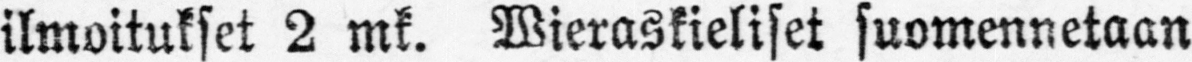ilmoitukset 2 mk. Wieraskieliset suomennetaan
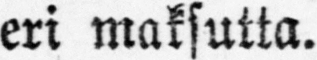eri maksutta.
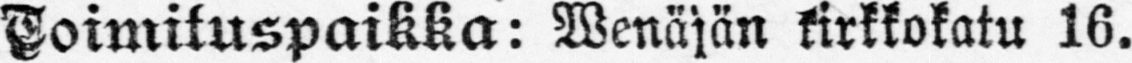Toimituspaikka: Wenäjän kirkkokatu 16.
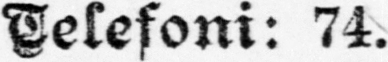Telefoni: 74.
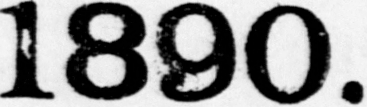1890.
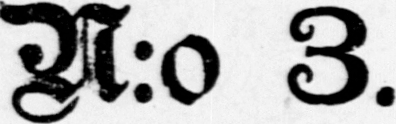N:o 3.
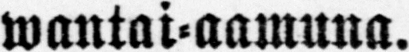wantai-aamuna.
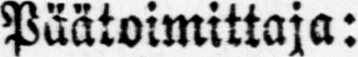Päätoimittaja:
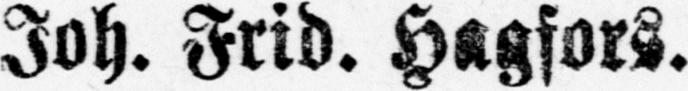Joh. Frid. Hagsors.
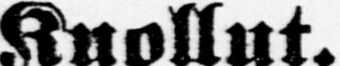Kuollut.
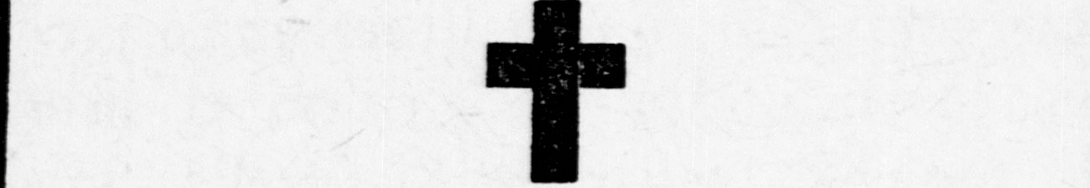†
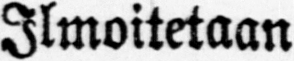Ilmoitetaan
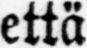että
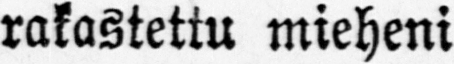rakastettu mieheni
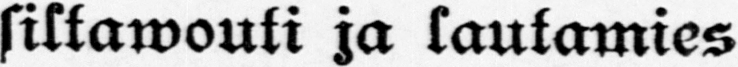siltawouti ja lautamies
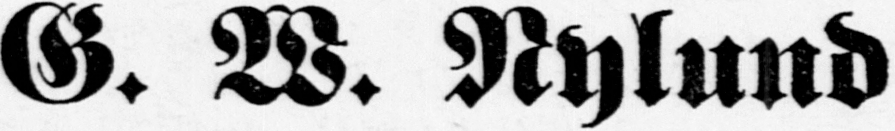G. W. Nylund
